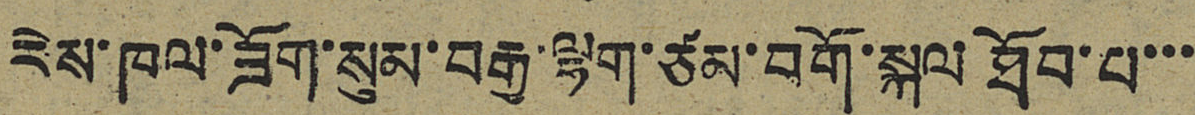རེས་ཁལ་ཟོག་སུམ་བརྒྱ་ལྷག་ཙམ་བགོ་སྐལ ཐོབ་པ་་་
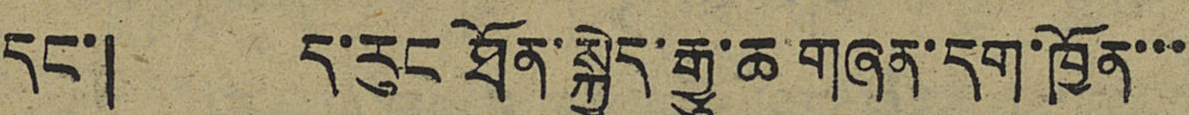དང་། ད་རུང ཐོན་སྐྱེད་རྒྱུ་ཆ གཞན་དག་ཁྱོན་་་
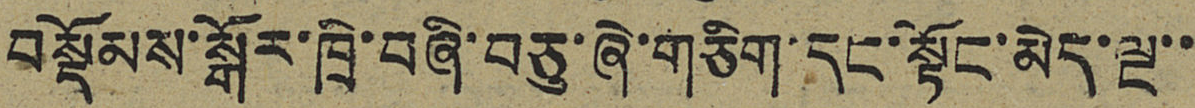བསྡོམས་སྒོར་ཁྲི་བཞི་བཅུ་ཞེ་གཅིག་དང་སྟོང་མེད་ལྔ་་
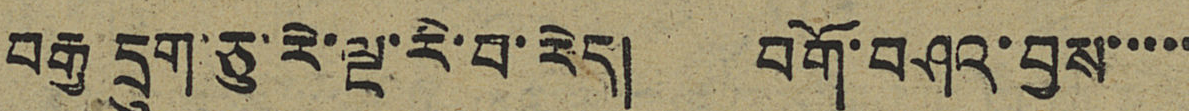བརྒྱ དྲུག་ཅུ་རེ་ལྔ་རི་བ་རེད། བགོ་བཤའ་བྱས་་་་་
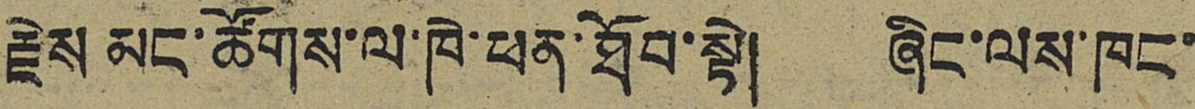རྗེས མང་ཚོགས་ལ་ཁེ་ཕན་ཐོབ་སྟེ། ཞིང་ལས་ཁང་
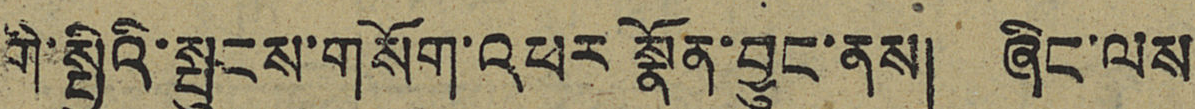གི་སྤྱིའི་སྤུངས་གསོག་འཕར སྣོན་བྱུང་ནས། ཞིང་ལས
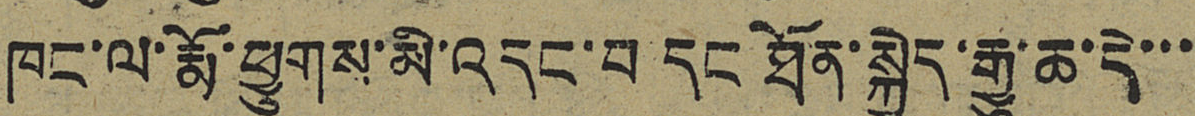ཁང་ལ་རྨོ་ཕྱུགས་མི་འདང་བ དང ཐོན་སྐྱེད་རྒྱུ་ཆ་དེ་་་
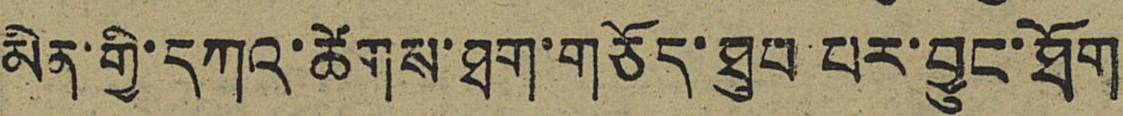མིན་གྱི་དཀའ་ཚེགས་ཐག་གཅོད་ཐུབ པར་བྱུང་ཐོག
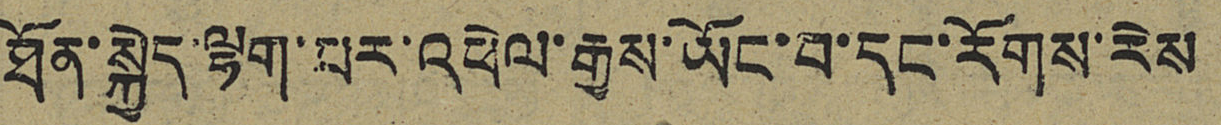ཐོན་སྐྱེད་ལྷག་པར་འཕེལ་རྒྱས་ཡོང་བ་དང་རོགས་རེས
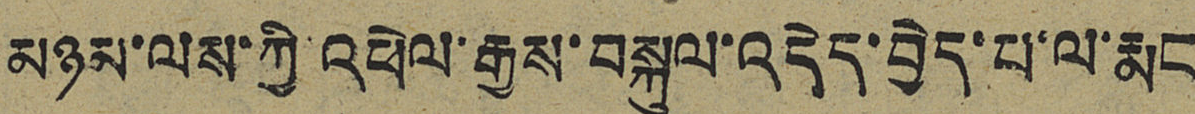མཉམ་ལས་ཀྱི་འཕེལ་རྒྱས་བསྐུལ་འདེད་བྱེད་པ་ལ་རྨང
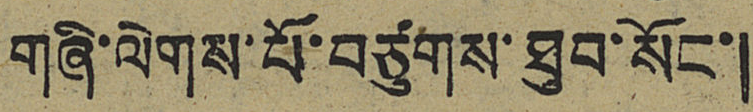གཞི་ལེགས་པོ་བཙུགས་ཐུབ་སོང་།
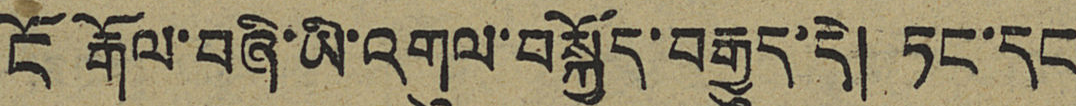ངོ རྒོལ་བཞི་ཡི་འགུལ་བསྐྱོད་བརྒྱུད་དེ། ཏང་དང
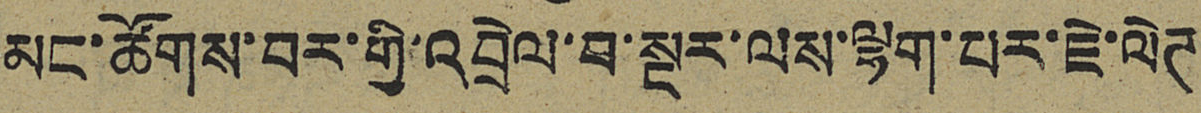མང་ཚོགས་བར་གྱི་འབྲེལ་བ་སྔར་ལས་ལྷག་པར་ཇེ་ལེཊ
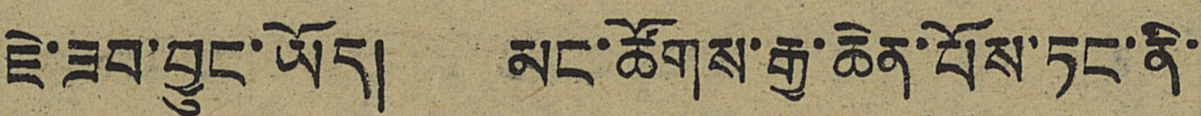ཇེ་ཟབ་བྱུང་ཡོད། མང་ཚོགས་རྒྱ་ཆེན་པོས་ཏང་ནི་
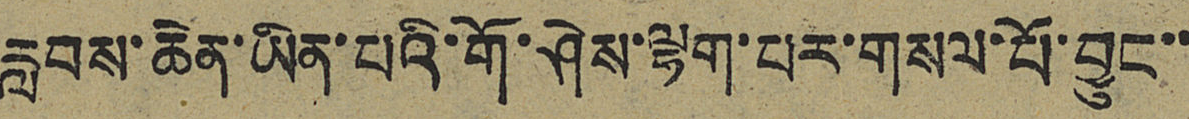རླབས་ཆེན་ཡིན་པའི་གོ་ཤེས་ལྷག་པར་གསལ་པོ་བྱུང་་
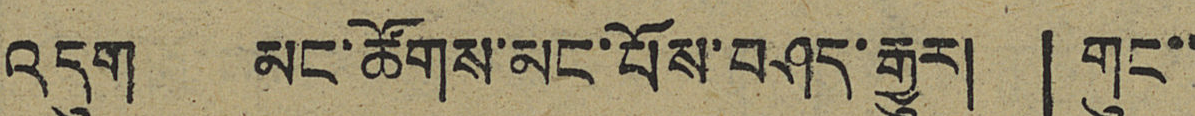འདུག མང་ཚོགས་མང་པོས་བཤད་རྒྱུར། 「གུང་་
